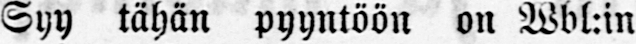Syy tähän pyyntöön on Wbl:in
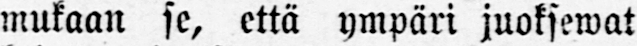mukaan se, että ympäri juoksewat
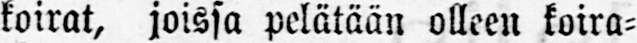koirat, joissa pelätään olleen koira-
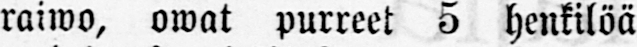raiwo, owat purreet 5 henkilöä
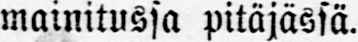mainitussa pitäjässä.
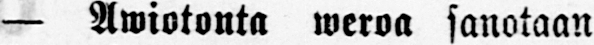— Awiotonta weroa sanotaan
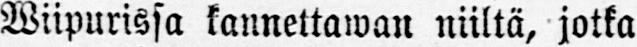Wiipurissa kannettawan niiltä, jotka
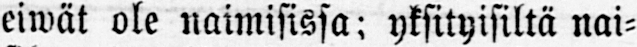eiwät ole naimisissa; yksityisiltä nai-
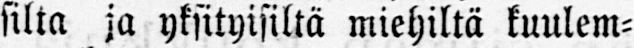silta ja yksityisiltä miehillä kuulem-
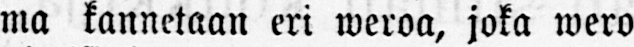ma kannetaan eri weroa, joka wero
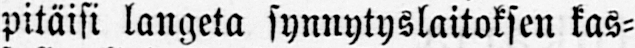pitäisi langeta synnytyslaitoksen kas-
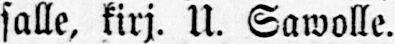salle, kirj. U. Sawolle.
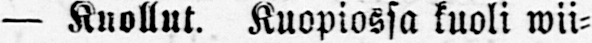— Kuollut. Kuopiossa kuoli wii-
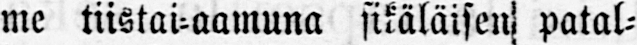me tiistai-aamuna sikäläisen patal-
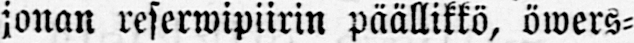jonan reserwipiirin päällikkö, öwers-
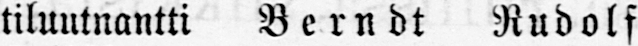tiluutnantti Berndt Rudolf
